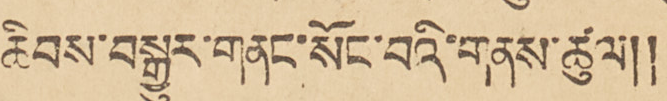ཆིབས་བསྒྱུར་གནང་སོང་བབའི་གནས་ཚུལ།།
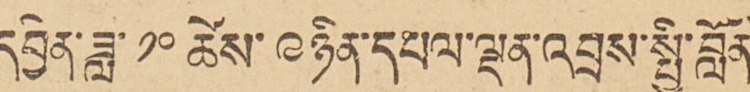དབྱིན་ཟླ་ ༡༠ ཚེས་ ༩ ཉིན་དཔལ་ལྡན་འབྲས་སྤྱི་བློན་
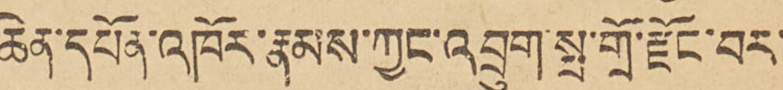ཆེན་དཔོན་འཁོར་རྣམས་ཀྱང་འབྲུག་སྤ་གྲོ་རྫོང་བར་
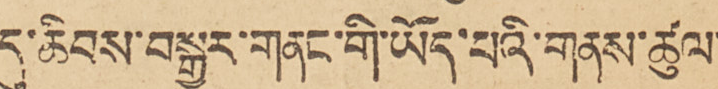དུ་ཆིབས་བསྒྱུར་གནང་གི་ཡོད་པའི་གནས་ཚུལ་
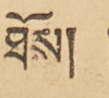ཐོས། །
